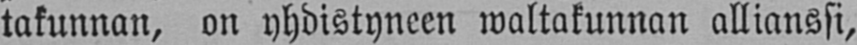takunnan, on yhdistyneen waltakunnan allianssi,
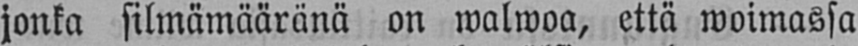jonka silmämääränä on walwoa, että woimassa
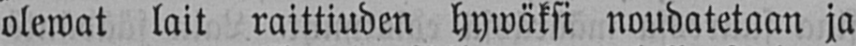olewat lait raittiuden hywäksi noudatetaan ja
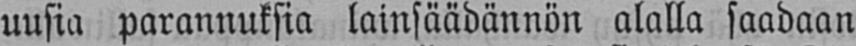uusia parannuksia lainsäädännön alalla saadaan
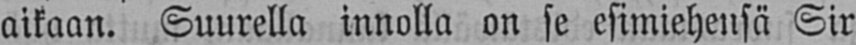aikaan. Suurella innolla on se esimiehensä Sir
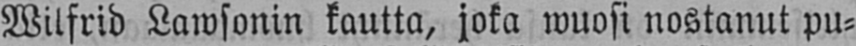Wilfrid Lawsonin kautta, joka wuosi nostanut pu-
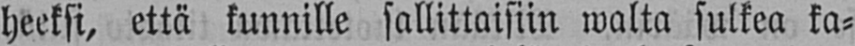heeksi, että kunnille sallittaisiin walta sulkea ka-
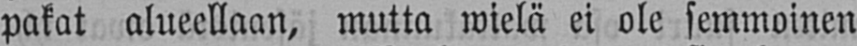pakat alueellaan, mutta wielä ei ole semmoinen
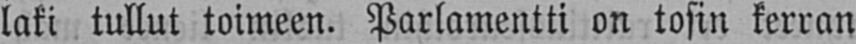laki tullut toimeen. Parlamentti on tosin kerran
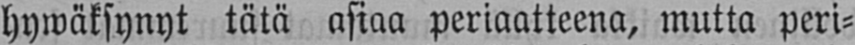hywäksynyt tätä asiaa periaatteena, mutta peri-
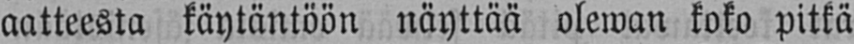aatteesta käytäntöön näyttää olewan koko pitkä
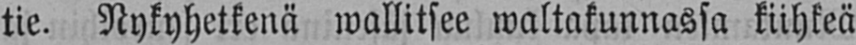tie. Nykyhetkenä wallitsee waltakunnassa kiihkeä
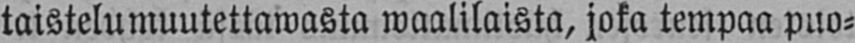taistelu muutettawasta waalilaista, joka tempaa puo-
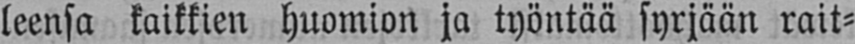leensa kaikkien huomion ja työntää syrjään rait-
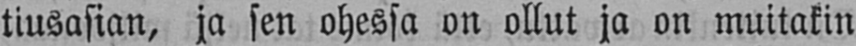tiusasian, ja sen ohessa on ollut ja on muitakin
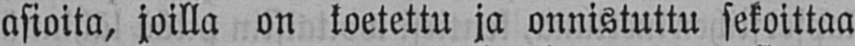asioita, joilla on koetettu ja onnistuttu sekoittaa
